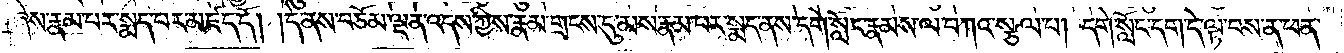ཞེས་རྣམ་པར་སྨད་པར་མཛད་དོ། །དེ་ནས་བཅོམ་ལྡན་འདས་ཀྱིས་རྣམ་གྲངས་དུ་མས་རྣམ་པར་སྨད་ནས་དགེ་སློང་རྣམས་ལ་བཀའ་སྩལ་པ། དགེ་སློང་དག་དེ་ལྟ་བས་ན་ཕན་
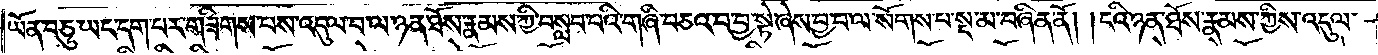ཡོན་བཅུ་ཡང་དག་པར་གཟིགས་པས་འདུལ་བ་ལ་ཉན་ཐོས་རྣམས་ཀྱི་བསླབ་པའི་གཞི་བཅའ་བ་བྱ་སྟེ་ཞེས་བྱ་བ་ལ་སོགས་པ་སྔ་མ་བཞིན་ནོ། །ངའི་ཉན་ཐོས་རྣམས་ཀྱིས་འདུལ་
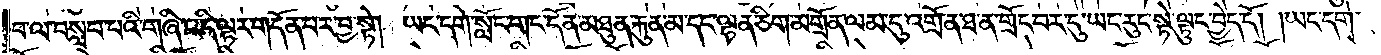བ་ལ་བསླབ་པའི་གཞི་འདི་ལྟར་གདོན་པར་བྱ་སྟེ། ཡང་དགེ་སློང་གང་དོན་མཐུན་རྐུན་མ་དང་ལྷན་ཅིག་མགྲོན་ལམ་དུ་འགྲོ་ན་ཐ་ན་གྲོང་བར་དུ་ཡང་རུང་སྟེ་ལྟུང་བྱེད་དོ། །ཡང་དགེ་
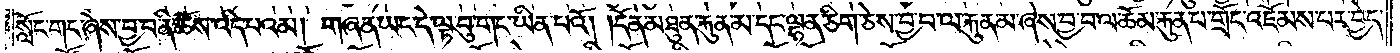སློང་གང་ཞེས་བྱ་བ་ནི་ཆོས་འདི་པའམ། གཞན་ཡང་དེ་ལྟ་བུ་གང་ཡིན་པའོ། །དོན་མཐུན་རྐུན་མ་དང་ལྷན་ཅིག་ཅེས་བྱ་བ་ལ་རྐུན་མ་ཞེས་བྱ་བ་ལ་ཆོམ་རྐུན་པ་གྲོང་འཇོམས་པར་བྱེད་
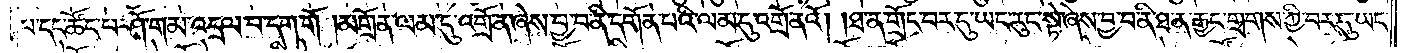པ་དང་ཚོང་པ་ཤོ་གམ་འདྲལ་བ་དག་གོ །མགྲོན་ལམ་དུ་འགྲོ་ན་ཞེས་བྱ་བ་ནི་དགོན་པའི་ལམ་དུ་འགྲོ་ནའོ། །ཐ་ན་གྲོང་བར་དུ་ཡང་རུང་སྟེ་ཞེས་བྱ་བ་ནི་ཐ་ན་རྒྱང་གྲགས་ཀྱི་བར་དུ་ཡང་
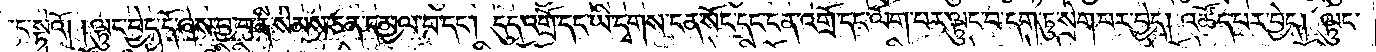རུང་སྟེའོ། །ལྟུང་བྱེད་དོ་ཞེས་བྱ་བ་ནི་སེམས་ཅན་དམྱལ་བ་དང༌། དུད་འགྲོ་དང་ཡི་དྭགས་ངན་སོང་དང་ངན་འགྲོ་དང་ལོག་པར་ལྟུང་བ་དག་ཏུ་སྲེག་པར་བྱེད། འཚོད་པར་བྱེད། ལྟུང་
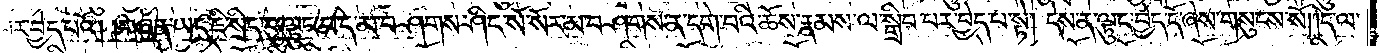བར་བྱེད་པའོ། །གཞན་ཡང་ཇི་སྲིད་དུ་ལྟུང་བ་དེ་མ་བཤགས་ཤིང་སོ་སོར་མ་བཤགས་ན་དགེ་བའི་ཆོས་རྣམས་ལ་སྒྲིབ་པར་བྱེད་པ་སྟེ། དེས་ན་ལྟུང་བྱེད་དོ་ཞེས་གསུངས་སོ། །དེ་ལ་
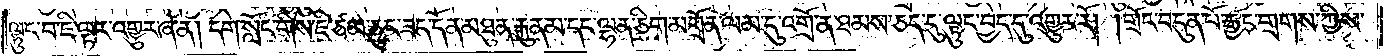ལྟུང་བ་ཇི་ལྟར་འགྱུར་ཞེ་ན། དགེ་སློང་གིས་ཇི་ཙམ་ཅུང་ཟད་དོན་མཐུན་རྐུན་མ་དང་ལྷན་ཅིག་མགྲོན་ལམ་དུ་འགྲོ་ན་ཐམས་ཅད་དུ་ལྟུང་བྱེད་དུ་འགྱུར་རོ། །གྲོང་བདུན་པོ་རྒྱང་གྲགས་ཀྱིས་
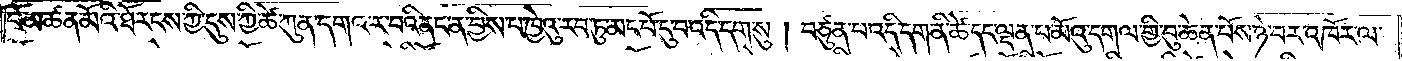བོ་མཚན་མོའི་ཐོ་རངས་ཀྱི་དུས་ཀྱི་ཚེ་ཀུན་དགའ་ར་བའི་ནང་ན་བྱིས་པ་ཁྱེའུ་རབ་ཏུ་མང་པོ་དུ་བ་འདི་དག་སུ། བཙུན་པ་འདི་དག་ནི་ཚེ་དང་ལྡན་པ་མོའུ་དགལ་གྱི་བུ་ཆེན་པོས་ཉེ་བར་འཁོར་ལ་
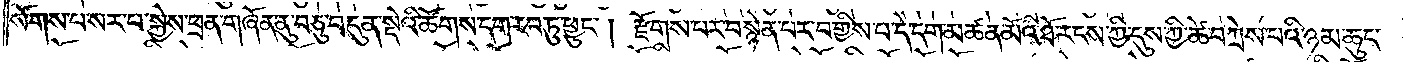སོགས་པ་སར་པ་སྐྱེས་ཕྲན་གཞོན་ནུ་བཅུ་བདུན་སྡེའི་ཚོ་དག་རབ་ཏུ་ཕྱུང༌། རྫོགས་པར་བསྙེན་པར་བགྱིས་པ་དེ་དག་མཚན་མོའི་ཐོ་རངས་ཀྱི་དུས་ཀྱི་ཚེ་བཀྲེས་པའི་ཉམ་ཆུང་
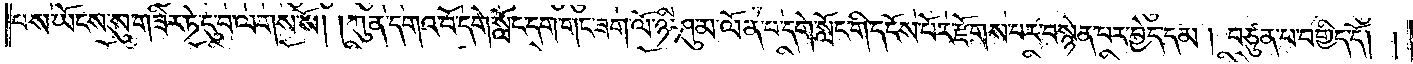པས་ཡོངས་སུ་གཟིར་ཏེ་དུ་བ་ལགས་སོ། །ཀུན་དགའ་བོ་དགེ་སློང་དག་གང་ཟག་ལོ་ཉི་ཤུ་མ་ལོན་པ་དགེ་སློང་གི་དངོས་པོར་རྫོགས་པར་བསྙེན་པར་བྱེད་དམ། བཙུན་པ་བགྱིད་དོ། །
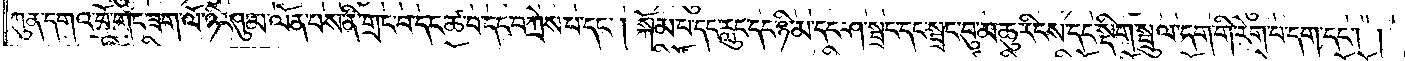ཀུན་དགའ་བོ་གང་ཟག་ལོ་ཉི་ཤུ་མ་ལོན་པས་ནི་གྲང་བ་དང་ཚ་བ་དང་བཀྲེས་པ་དང༌། སྐོམ་པ་དང་རླུང་དང་ཉི་མ་དང་ཤ་སྦྲང་དང་སྦྲང་བུ་མཆུ་རིངས་དང་སྡིག་སྦྲུལ་དག་གི་རེག་པ་དག་དང༌། །
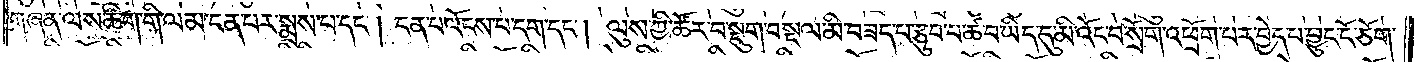གཞན་ལས་ཚིག་གི་ལམ་ངན་པར་སྨྲས་པ་དང༌། ངན་པ་འོངས་པ་དག་དང༌། ལུས་ཀྱི་ཚོར་བ་སྡུག་བསྔལ་མི་བཟད་པ་རྩུབ་པ་ཚ་བ་ཡིད་དུ་མི་འོང་བ་སྲོག་འཕྲོག་པར་བྱེད་པ་བྱུང་ངོ་ཅོག་
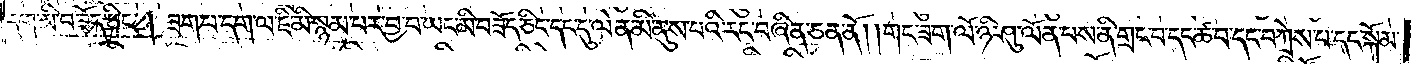དག་མི་བཟོད་ཅིང༌། ཟག་པ་དག་ལ་ཇི་མི་སྙམ་པར་བྱ་བ་ཡང་མི་བཟོད་ཅིང་དང་དུ་ལེན་མི་ནུས་པའི་རང་བཞིན་ཅན་ནོ། །གང་ཟག་ལོ་ཉི་ཤུ་ལོན་པས་ནི་གྲང་བ་དང་ཚ་བ་དང་བཀྲེས་པ་དང་སྐོམ་
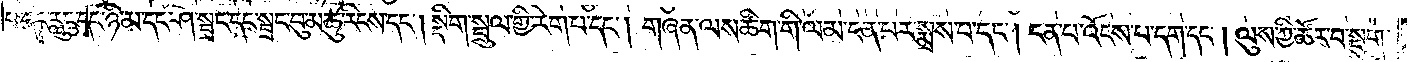པ་དང་རླུང་དང་ཉི་མ་དང་ཤ་སྦྲང་དང་སྦྲང་བུ་མཆུ་རིངས་དང༌། སྡིག་སྦྲུལ་གྱི་རེག་པ་དང༌། གཞན་ལས་ཚིག་གི་ལམ་ངན་པར་སྨྲས་པ་དང༌། ངན་པ་འོངས་པ་དག་དང༌། ལུས་ཀྱི་ཚོར་བ་སྡུག་
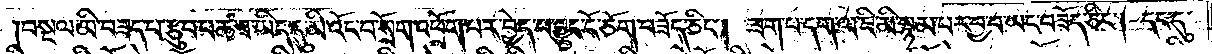བསྔལ་མི་བཟད་པ་རྩུབ་པ་ཚ་བ་ཡིད་དུ་མི་འོངས་པ་སྲོག་འཕྲོག་པར་བྱེད་པ་བྱུང་ངོ་ཅོག་བཟོད་ཅིང༌། ཟག་པ་དག་ལ་ཇི་མི་སྙམ་པར་བྱ་བ་ཡང་བཟོད་ཅིང༌། དང་དུ་
